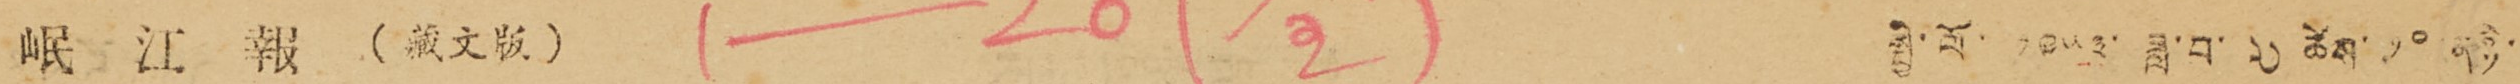岷 江 報 （藏文版） སྤྱི་ལོ་ ༡༩༥༣་ ཟླ་བ་ ༦ ཚེས ༡༠ ནཉི་
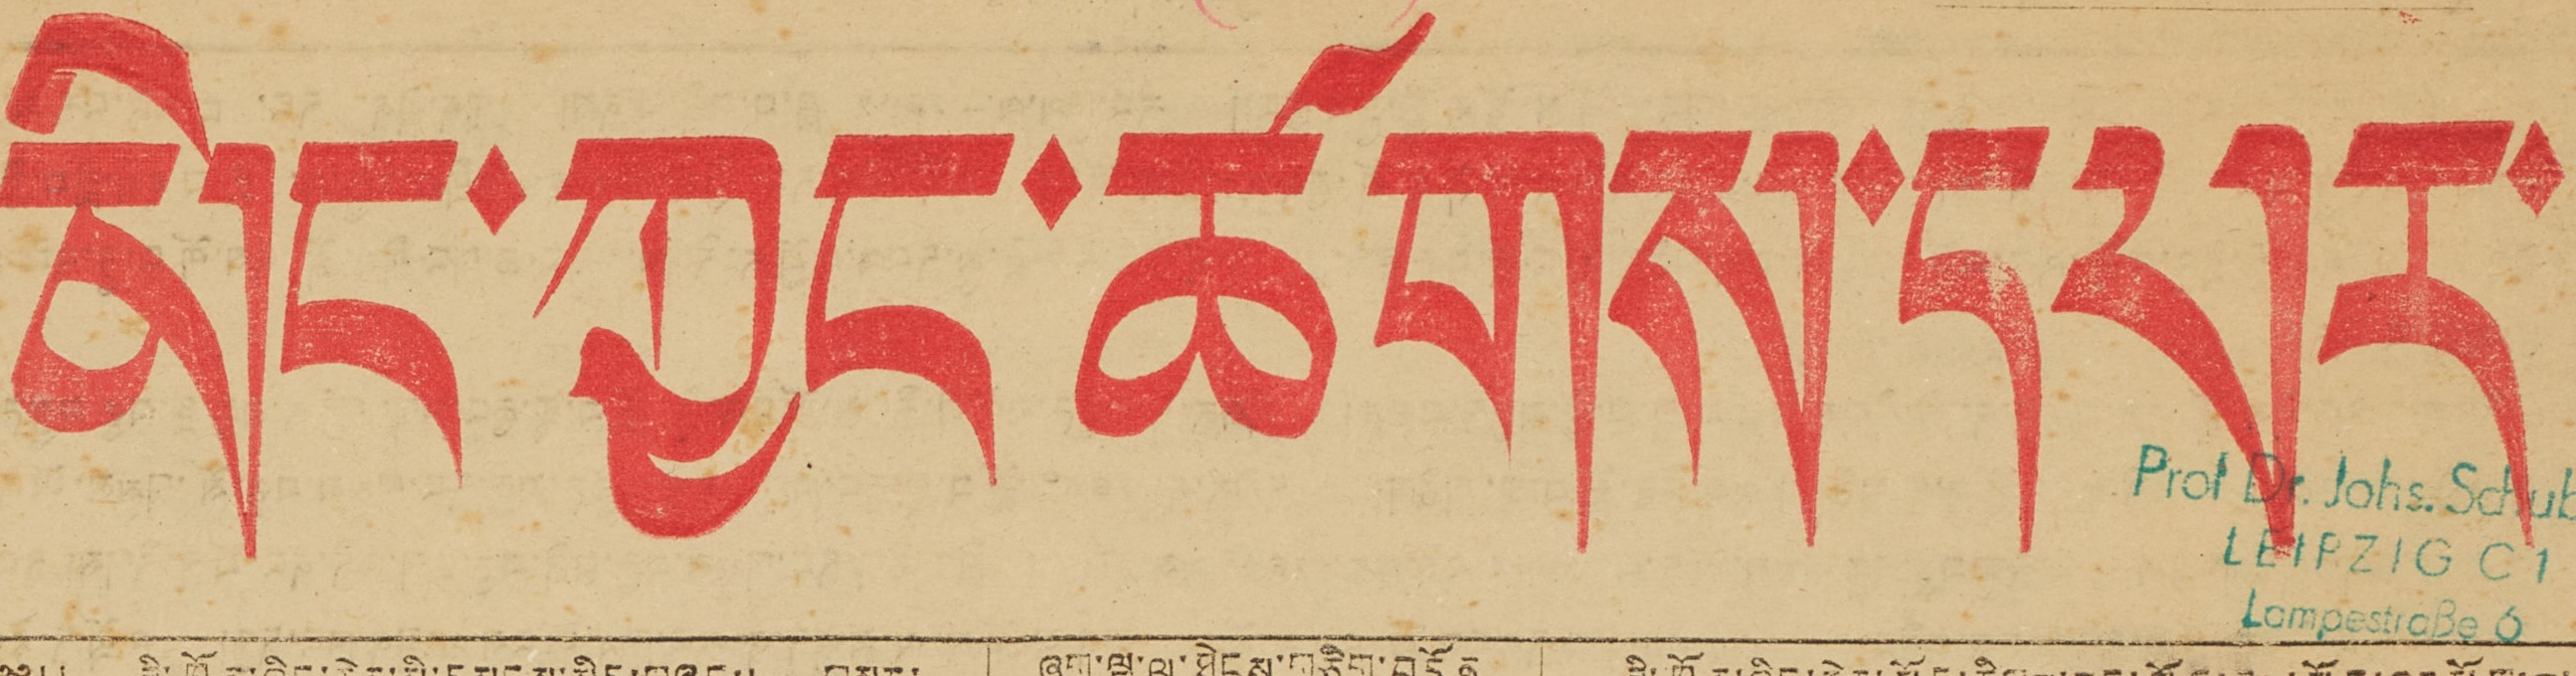མིང་ཀྱང་ཚགས་དཔར་
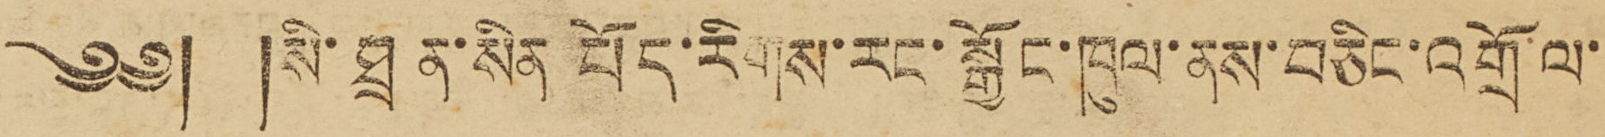༄༅། །སི་ཐྲན་སིན བོད་རིགས་རང་སྒྱོང་ཁུལ་ནས་བཅིང་འགྲོལ་
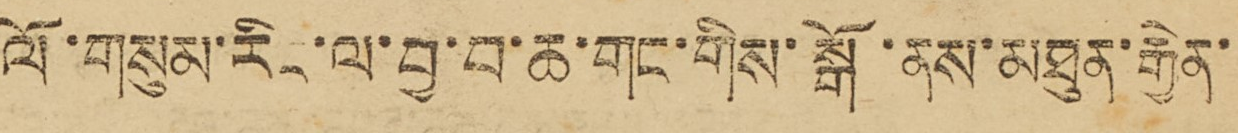ལོ་གསུམ་རིང་ལ་བྱ་བ་ཆ་གང་གིས་སྒོ་ནས་མཐུན་རྒྱེན་
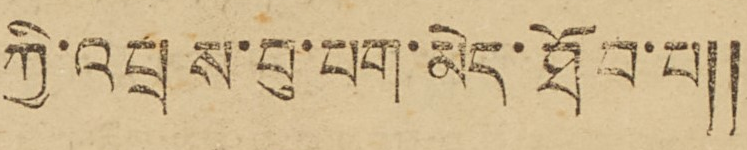ཀྱི་འབྲས་བུ་པག་མེད་ཐོབ་པ༎
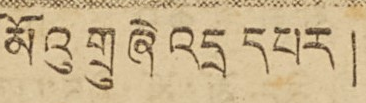མོའུ གྲུ ཞེ འདྲ དཔར །
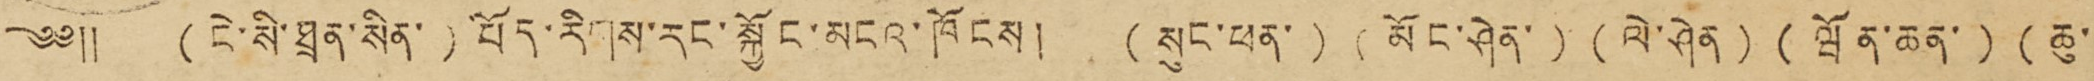༄༅༎ ( ངེ་སི་ཐྲན་སིན་ ) བོད་རིགས་རང་སྐྱོང་མངའ་ཁོངས། ( སུང་ཕན་ ) ( མོང་ཤེན་ ) ( ལེ་ཤེན ) ( ཝོན་ཆན་ ) ( ཆུ་
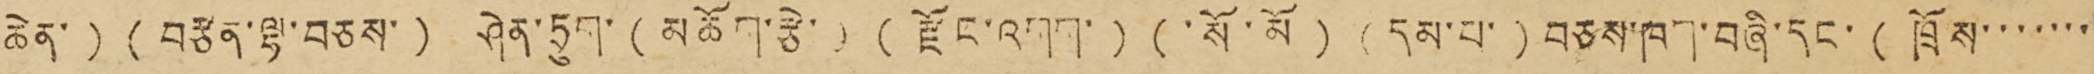ཆེན་ ) ( བརྩན་ལྷ་བཅས་ ) ཤེན་ཏྲུག་ ( མཆོག་རྩེ་ ) ( རྫོང་འགག་ ) ( ་སོ་མོ ) ( དམ་པ་ ) བཅས་ཁག་བཞི་དང་ ( ཁྲོས་་་་་་་
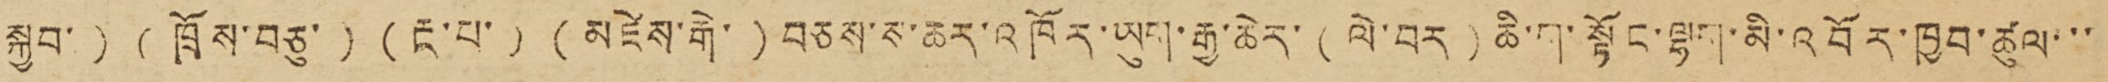སྐྱབ་ ) ( ཁྲོས་བཅུ་ ) ( རྔ་པ་ ) ( མཛེས་རྒེ་ ) བཅས་ས་ཆར་འཁོར་ཡུག་རྒྱ་ཆེར་ ( ལེ་བར་ ) ཆི་ག་སྟོང་ལྷག་མི་འབོར་ཁྱབ་ཚུལ་་་
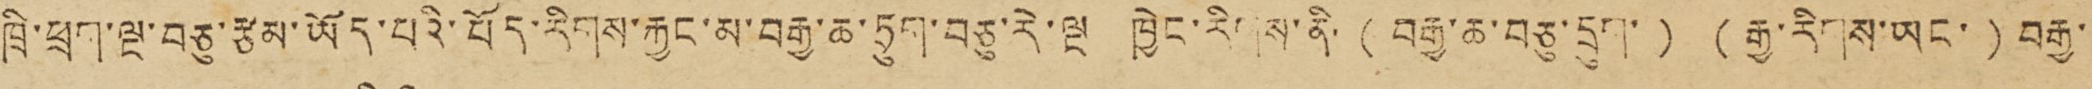ཁྲི་ཕྲག་ལྔ་བཅུ་རྩམ་ཡོད་པའི་བོད་རིགས་རྐྱང་མ་བརྒྱ་ཆ་ཏྲུག་བཅུ་རེ་ལྔ ཁྱེང་རིགས་ནི་ ( བརྒྱ་ཆ་བཅུ་དྲུག་ ) ( རྒྱ་རིགས་ཡང་ ) བརྒྱ་
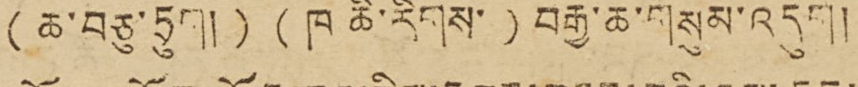( ཆ་བཅུ་ཏྲུག། ) ( ཁ ཆི་རིགས་ ) བརྒྱ་ཆ་གསུམ་འདུག།
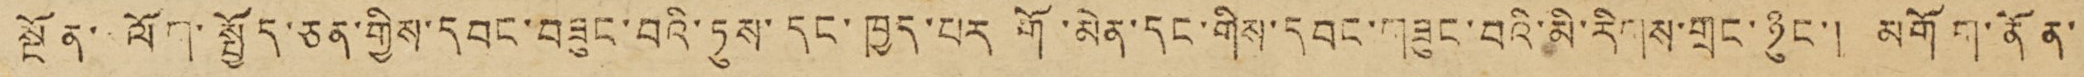སྔོན་ལོག་སྤྱོད་ཅན་གྱིས་དབང་བཟུང་བའི་ཏུས་དང་ཁྱད་པར གོ་མེད་དང་གིས་དབང་གཟུང་བའི་མི་རིགས་གྲང་ཉུང་། མགོག་ནོན་
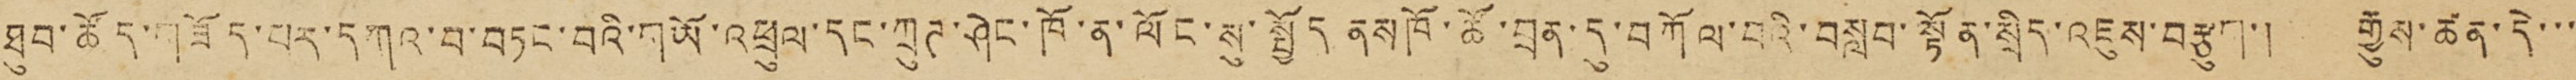ཐུབ་ཚོད་གཟོད་པར་དཀའ་བ་བཏང་བའི་གཡོ་འཕྲུལ་དང་ཀྲུཊ་ཤེང་ཁོ་ན་ལོང་སུ་སྤྱོད ནས ཁོ་ཚོ་བྲན་དུ་བཀོལ་བའི་བསླབ་སྟོན་སྲིད་འཇུས་བརྩུག་། རྒྱུས་ཚན་དེ་་་
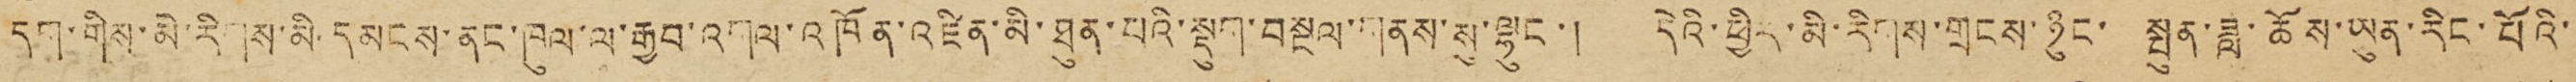དག་གིས་མི་རིགས་མི དམངས་ནང་ཁུལ་ལ་རྒྱབ་འགལ་འཁོན་འཛིན་མི་ཐུན་པའི་སྡུག་བསྔལ་གནས་སུ་ལྷུང་། དེའི་ཕྱིར་མི་རིགས་གྲངས་ཉུང་ སྤུན་ཟླ་ཆོས་ཡུན་རིང་པོའི་
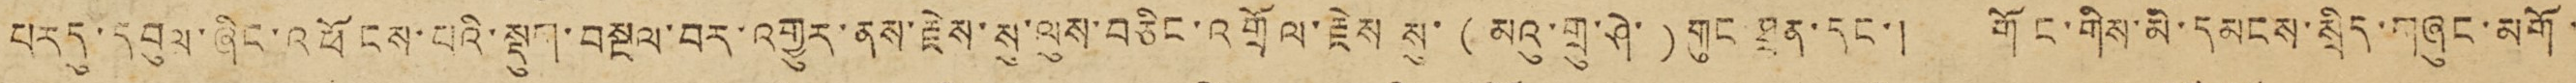པརདུ་དབུལ་ཞིང་འཕོངས་པའི་སྡུག་བསྔལ་བར་འགྱུར་ནས་རྗེས་སུ་ལུས་བཅིང་འགྲོལ་རྗེས སུ་ ( མའུ་གྲུ་ཤེ་ ) གུང ཐྲན་དང་། གོང་གིས་མི་དམངས་སྲིད་གཞུང་མགོ་
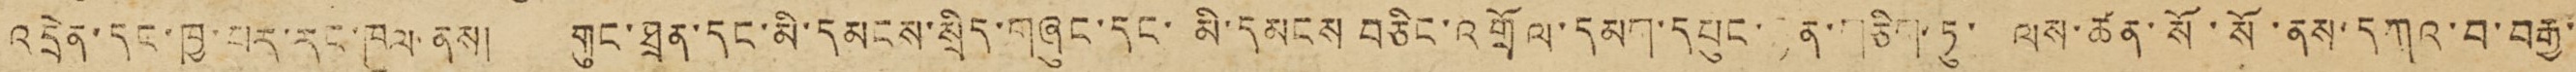འདྲེན་དང་ཁྱ་པར་རང་ཁུལ་ནས། གུང་ཐྲན་དང་མི་དམངས་སྲིད་གཞུང་དང་ མི་དམངས བཅིང་འགྲོལ་དམག་དཔུང་རྟན་གཅིག་ཏུ་ ལས་ཚན་སོ་སོ་ནས་དཀའ་བ་བརྒྱ་
